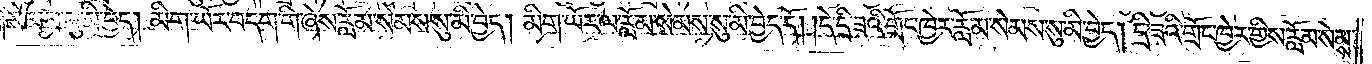སེམས་སུ་མི་བྱེད། མིག་ཡོར་བདག་གི་ཞེས་རློམ་སེམས་སུ་མི་བྱེད། མིག་ཡོར་ལ་རློམ་སེམས་སུ་མི་བྱེད་དོ། །དེ་དྲི་ཟའི་གྲོང་ཁྱེར་རློམ་སེམས་སུ་མི་བྱེད། དྲི་ཟའི་གྲོང་ཁྱེར་གྱིས་རློམ་སེམས་
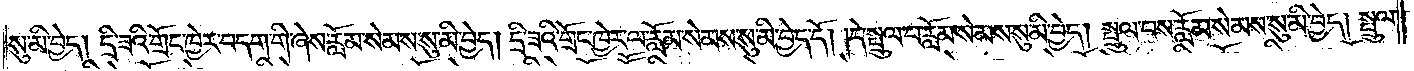སུ་མི་བྱེད། དྲི་ཟའི་གྲོང་ཁྱེར་བདག་གི་ཞེས་རློམ་སེམས་སུ་མི་བྱེད། དྲི་ཟའི་གྲོང་ཁྱེར་ལ་རློམ་སེམས་སུ་མི་བྱེད་དོ། །དེ་སྤྲུལ་པ་རློམ་སེམས་སུ་མི་བྱེད། སྤྲུལ་པས་རློམ་སེམས་སུ་མི་བྱེད། སྤྲུལ་
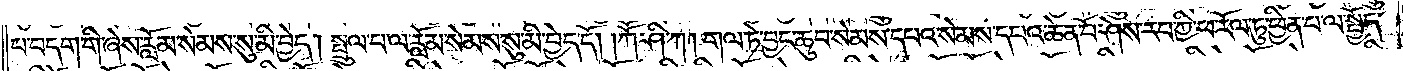པ་བདག་གི་ཞེས་རློམ་སེམས་སུ་མི་བྱེད། སྤྲུལ་པ་ལ་རློམ་སེམས་སུ་མི་བྱེད་དོ། །ཀཽ་ཤི་ཀ། གལ་ཏེ་བྱང་ཆུབ་སེམས་དཔའ་སེམས་དཔའ་ཆེན་པོ་ཤེས་རབ་ཀྱི་ཕ་རོལ་ཏུ་ཕྱིན་པ་ལ་སྤྱོད་
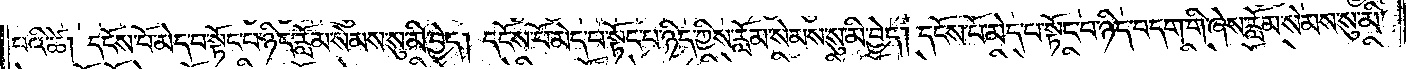པའི་ཚེ། དངོས་པོ་མེད་པ་སྟོང་པ་ཉིད་རློམ་སེམས་སུ་མི་བྱེད། དངོས་པོ་མེད་པ་སྟོང་པ་ཉིད་ཀྱིས་རློམ་སེམས་སུ་མི་བྱེད། དངོས་པོ་མེད་པ་སྟོང་པ་ཉིད་བདག་གི་ཞེས་རློམ་སེམས་སུ་མི་
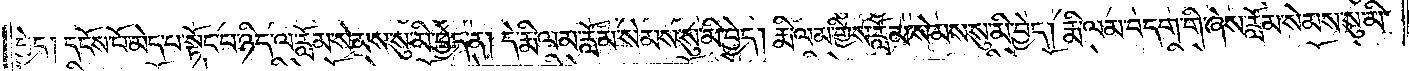བྱེད། དངོས་པོ་མེད་པ་སྟོང་པ་ཉིད་ལ་རློམ་སེམས་སུ་མི་བྱེད་ན། དེ་རྨི་ལམ་རློམ་སེམས་སུ་མི་བྱེད། རྨི་ལམ་གྱིས་རློམ་སེམས་སུ་མི་བྱེད། རྨི་ལམ་བདག་གི་ཞེས་རློམ་སེམས་སུ་མི་
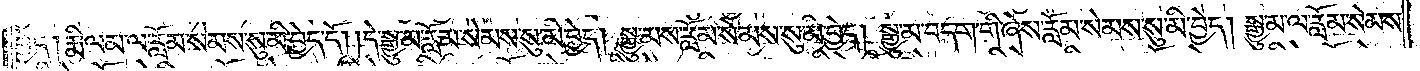བྱེད། རྨི་ལམ་ལ་རློམ་སེམས་སུ་མི་བྱེད་དོ། །དེ་སྒྱུ་མ་རློམ་སེམས་སུ་མི་བྱེད། སྒྱུ་མས་རློམ་སེམས་སུ་མི་བྱེད། སྒྱུ་མ་བདག་གི་ཞེས་རློམ་སེམས་སུ་མི་བྱེད། སྒྱུ་མ་ལ་རློམ་སེམས་
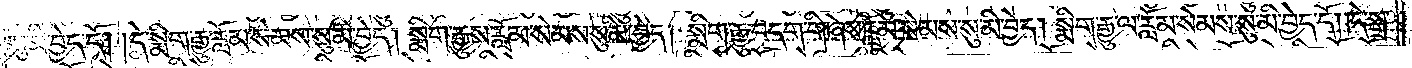སུ་མི་བྱེད་དོ། །དེ་སྨིག་རྒྱུ་རློམ་སེམས་སུ་མི་བྱེད། སྨིག་རྒྱུས་རློམ་སེམས་སུ་མི་བྱེད། སྨིག་རྒྱུ་བདག་གི་ཞེས་རློམ་སེམས་སུ་མི་བྱེད། སྨིག་རྒྱུ་ལ་རློམ་སེམས་སུ་མི་བྱེད་དོ། །དེ་སྒྲ་
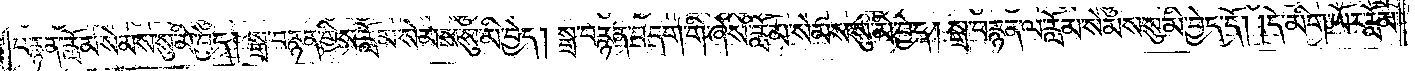བརྙན་རློམ་སེམས་སུ་མི་བྱེད། སྒྲ་བརྙན་གྱིས་རློམ་སེམས་སུ་མི་བྱེད། སྒྲ་བརྙན་བདག་གི་ཞེས་རློམ་སེམས་སུ་མི་བྱེད། སྒྲ་བརྙན་ལ་རློམ་སེམས་སུ་མི་བྱེད་དོ། །དེ་མིག་ཡོར་རློམ་
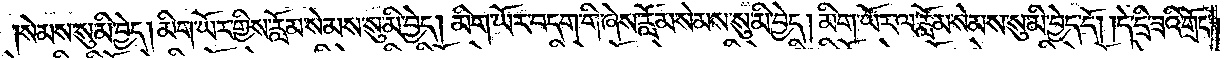སེམས་སུ་མི་བྱེད། མིག་ཡོར་གྱིས་རློམ་སེམས་སུ་མི་བྱེད། མིག་ཡོར་བདག་གི་ཞེས་རློམ་སེམས་སུ་མི་བྱེད། མིག་ཡོར་ལ་རློམ་སེམས་སུ་མི་བྱེད་དོ། །དེ་དྲི་ཟའི་གྲོང་
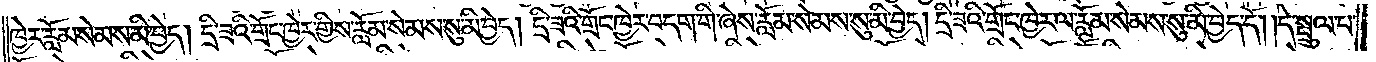ཁྱེར་རློམ་སེམས་སུ་མི་བྱེད། དྲི་ཟའི་གྲོང་ཁྱེར་གྱིས་རློམ་སེམས་སུ་མི་བྱེད། དྲི་ཟའི་གྲོང་ཁྱེར་བདག་གི་ཞེས་རློམ་སེམས་སུ་མི་བྱེད། དྲི་ཟའི་གྲོང་ཁྱེར་ལ་རློམ་སེམས་སུ་མི་བྱེད་དོ། །དེ་སྤྲུལ་པ་
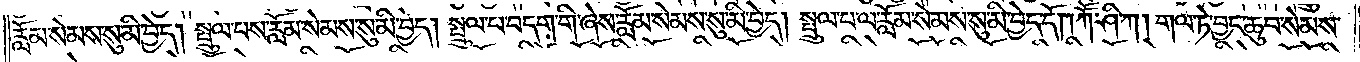རློམ་སེམས་སུ་མི་བྱེད། སྤྲུལ་པས་རློམ་སེམས་སུ་མི་བྱེད། །སྤྲུལ་པ་བདག་གི་ཞེས་རློམ་སེམས་སུ་མི་བྱེད། སྤྲུལ་པ་ལ་རློམ་སེམས་སུ་མི་བྱེད་དོ། །ཀཽ་ཤི་ཀ། གལ་ཏེ་བྱང་ཆུབ་སེམས་
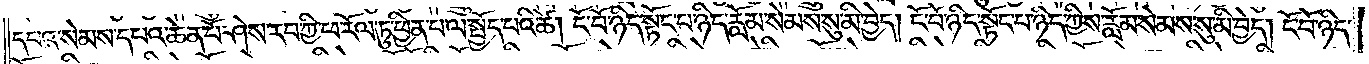དཔའ་སེམས་དཔའ་ཆེན་པོ་ཤེས་རབ་ཀྱི་ཕ་རོལ་ཏུ་ཕྱིན་པ་ལ་སྤྱོད་པའི་ཚེ། ངོ་བོ་ཉིད་སྟོང་པ་ཉིད་རློམ་སེམས་སུ་མི་བྱེད། ངོ་བོ་ཉིད་སྟོང་པ་ཉིད་ཀྱིས་རློམ་སེམས་སུ་མི་བྱེད། ངོ་བོ་ཉིད་
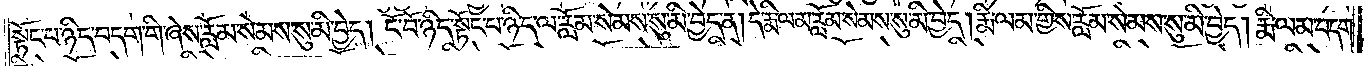སྟོང་པ་ཉིད་བདག་གི་ཞེས་རློམ་སེམས་སུ་མི་བྱེད། ངོ་བོ་ཉིད་སྟོང་པ་ཉིད་ལ་རློམ་སེམས་སུ་མི་བྱེད་ན། དེ་རྨི་ལམ་རློམ་སེམས་སུ་མི་བྱེད། རྨི་ལམ་གྱིས་རློམ་སེམས་སུ་མི་བྱེད། རྨི་ལམ་བདག་
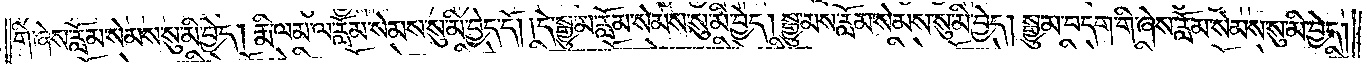གི་ཞེས་རློམ་སེམས་སུ་མི་བྱེད། རྨི་ལམ་ལ་རློམ་སེམས་སུ་མི་བྱེད་དོ། །དེ་སྒྱུ་མ་རློམ་སེམས་སུ་མི་བྱེད། སྒྱུ་མས་རློམ་སེམས་སུ་མི་བྱེད། སྒྱུ་མ་བདག་གི་ཞེས་རློམ་སེམས་སུ་མི་བྱེད།
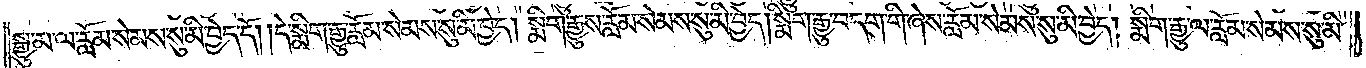སྒྱུ་མ་ལ་རློམ་སེམས་སུ་མི་བྱེད་དོ། །དེ་སྨིག་རྒྱུ་རློམ་སེམས་སུ་མི་བྱེད། སྨིག་རྒྱུས་རློམ་སེམས་སུ་མི་བྱེད། སྨིག་རྒྱུ་བདག་གི་ཞེས་རློམ་སེམས་སུ་མི་བྱེད། སྨིག་རྒྱུ་ལ་རློམ་སེམས་སུ་མི་
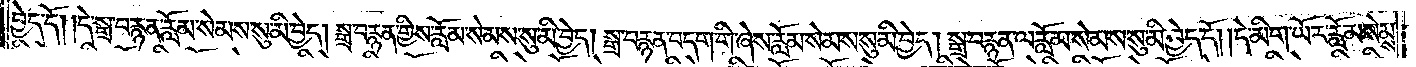བྱེད་དོ། །དེ་སྒྲ་བརྙན་རློམ་སེམས་སུ་མི་བྱེད། སྒྲ་བརྙན་གྱིས་རློམ་སེམས་སུ་མི་བྱེད། སྒྲ་བརྙན་བདག་གི་ཞེས་རློམ་སེམས་སུ་མི་བྱེད། སྒྲ་བརྙན་ལ་རློམ་སེམས་སུ་མི་བྱེད་དོ། །དེ་མིག་ཡོར་རློམ་སེམས་
